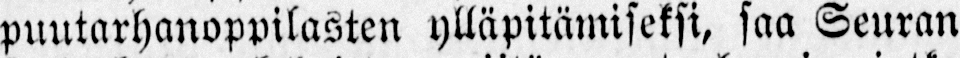puutarhanoppilasten ylläpitäimiseksi, saa Seuran
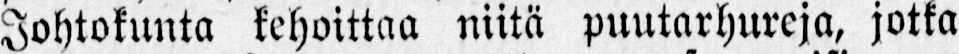Johtokunta kehoittaa niitä puutarhureja, jotka
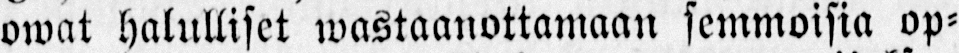owat halulliset wastaanottamaan semmoisia op-
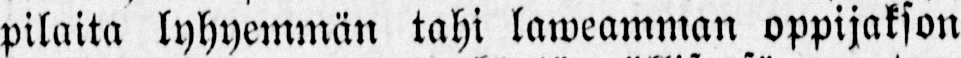pilaita lyhyemmän tahi laweamman oppijakson
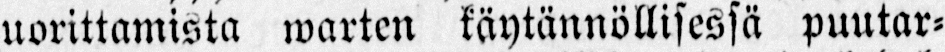suorittamista warten käytännöllisessä puutar-
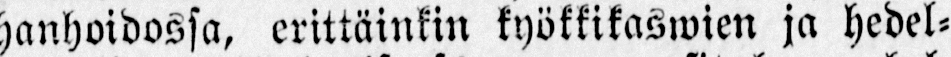hanhoidossa, erittäinkin kyökkikaswien ja hedel-
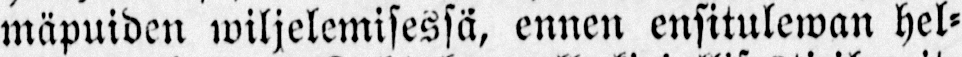mäpuiden wiljelemisessä, ennen ensitulewan hel-
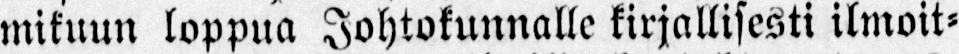mikuun loppua Johtokunnalle kirjallisesti ilmoit-
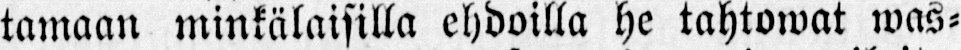tamaan minkälaisilla ehdoilla he tahtowat was-
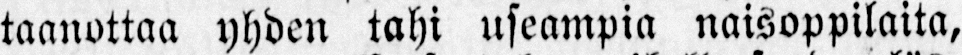taanottaa yhden tahi useampia naisoppilaita,
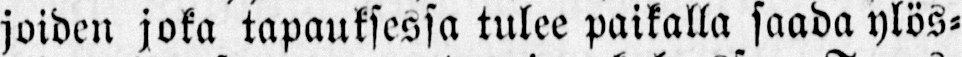joiden joka tapauksessa tulee paikalla saada ylös-
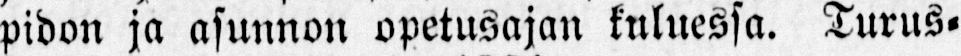pidon ja asunnon opetusajan kuluessa. Turus-
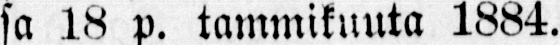sa 18 p. tammikuuta 1884.
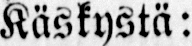Käskystä:
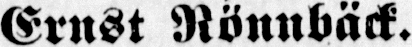Ernst Rönnbäck.
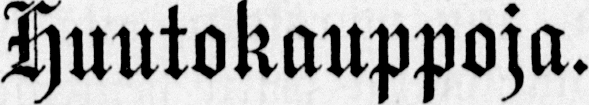Huutokauppoja.
